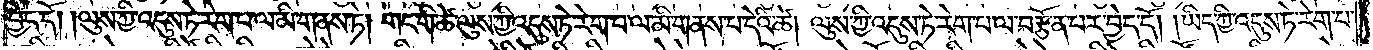བྱེད་དོ། །ལུས་ཀྱི་འདུས་ཏེ་རེག་པ་ལ་མི་གནས་ཏེ། གང་གི་ཚེ་ལུས་ཀྱི་འདུས་ཏེ་རེག་པ་ལ་མི་གནས་པ་དེའི་ཚེ། ལུས་ཀྱི་འདུས་ཏེ་རེག་པ་ལ་བརྩོན་པར་བྱེད་དོ། །ཡིད་ཀྱི་འདུས་ཏེ་རེག་པ་
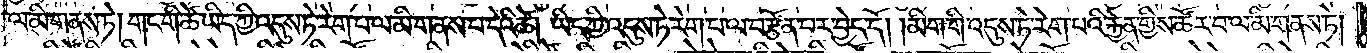ལ་མི་གནས་ཏེ། གང་གི་ཚེ་ཡིད་ཀྱི་འདུས་ཏེ་རེག་པ་ལ་མི་གནས་པ་དེའི་ཚེ། ཡིད་ཀྱི་འདུས་ཏེ་རེག་པ་ལ་བརྩོན་པར་བྱེད་དོ། །མིག་གི་འདུས་ཏེ་རེག་པའི་རྐྱེན་གྱིས་ཚོར་བ་ལ་མི་གནས་ཏེ།
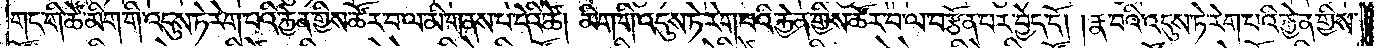གང་གི་ཚེ་མིག་གི་འདུས་ཏེ་རེག་པའི་རྐྱེན་གྱིས་ཚོར་བ་ལ་མི་གནས་པ་དེའི་ཚེ། མིག་གི་འདུས་ཏེ་རེག་པའི་རྐྱེན་གྱིས་ཚོར་བ་ལ་བརྩོན་པར་བྱེད་དོ། །རྣ་བའི་འདུས་ཏེ་རེག་པའི་རྐྱེན་གྱིས་
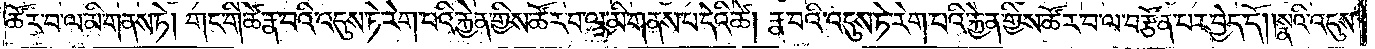ཚོར་བ་ལ་མི་གནས་ཏེ། གང་གི་ཚེ་རྣ་བའི་འདུས་ཏེ་རེག་པའི་རྐྱེན་གྱིས་ཚོར་བ་ལ་མི་གནས་པ་དེའི་ཚེ། རྣ་བའི་འདུས་ཏེ་རེག་པའི་རྐྱེན་གྱིས་ཚོར་བ་ལ་བརྩོན་པར་བྱེད་དོ། །སྣའི་འདུས་
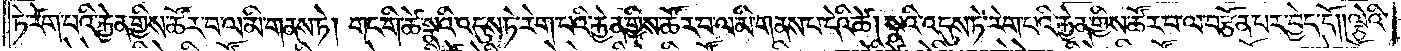ཏེ་རེག་པའི་རྐྱེན་གྱིས་ཚོར་བ་ལ་མི་གནས་ཏེ། གང་གི་ཚེ་སྣའི་འདུས་ཏེ་རེག་པའི་རྐྱེན་གྱིས་ཚོར་བ་ལ་མི་གནས་པ་དེའི་ཚེ། སྣའི་འདུས་ཏེ་རེག་པའི་རྐྱེན་གྱིས་ཚོར་བ་ལ་བརྩོན་པར་བྱེད་དོ། །ལྕེའི་
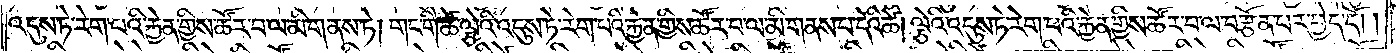འདུས་ཏེ་རེག་པའི་རྐྱེན་གྱིས་ཚོར་བ་ལ་མི་གནས་ཏེ། གང་གི་ཚེ་ལྕེའི་འདུས་ཏེ་རེག་པའི་རྐྱེན་གྱིས་ཚོར་བ་ལ་མི་གནས་པ་དེའི་ཚེ། ལྕེའི་འདུས་ཏེ་རེག་པའི་རྐྱེན་གྱིས་ཚོར་བ་ལ་བརྩོན་པར་བྱེད་དོ། །
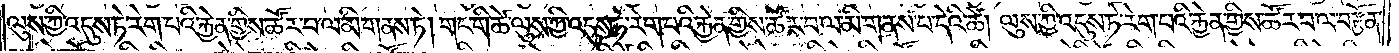ལུས་ཀྱི་འདུས་ཏེ་རེག་པའི་རྐྱེན་གྱིས་ཚོར་བ་ལ་མི་གནས་ཏེ། གང་གི་ཚེ་ལུས་ཀྱི་འདུས་ཏེ་རེག་པའི་རྐྱེན་གྱིས་ཚོར་བ་ལ་མི་གནས་པ་དེའི་ཚེ། ལུས་ཀྱི་འདུས་ཏེ་རེག་པའི་རྐྱེན་གྱིས་ཚོར་བ་ལ་བརྩོན་
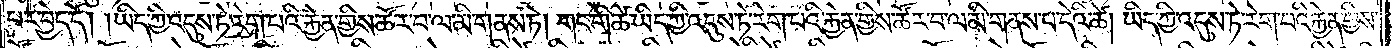པར་བྱེད་དོ། །ཡིད་ཀྱི་འདུས་ཏེ་རེག་པའི་རྐྱེན་གྱིས་ཚོར་བ་ལ་མི་གནས་ཏེ། གང་གི་ཚེ་ཡིད་ཀྱི་འདུས་ཏེ་རེག་པའི་རྐྱེན་གྱིས་ཚོར་བ་ལ་མི་གནས་པ་དེའི་ཚེ། ཡིད་ཀྱི་འདུས་ཏེ་རེག་པའི་རྐྱེན་གྱིས་
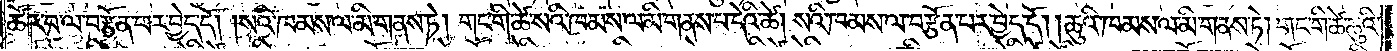ཚོར་བ་ལ་བརྩོན་པར་བྱེད་དོ། །སའི་ཁམས་ལ་མི་གནས་ཏེ། གང་གི་ཚེ་སའི་ཁམས་ལ་མི་གནས་པ་དེའི་ཚེ། སའི་ཁམས་ལ་བརྩོན་པར་བྱེད་དོ། །ཆུའི་ཁམས་ལ་མི་གནས་ཏེ། གང་གི་ཚེ་ཆུའི་
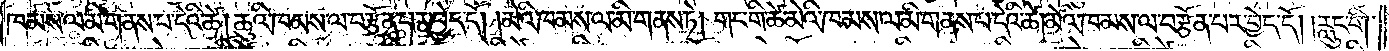ཁམས་ལ་མི་གནས་པ་དེའི་ཚེ། ཆུའི་ཁམས་ལ་བརྩོན་པར་བྱེད་དོ། །མེའི་ཁམས་ལ་མི་གནས་ཏེ། གང་གི་ཚེ་མེའི་ཁམས་ལ་མི་གནས་པའི་དེའི་ཚེ། མེའི་ཁམས་ལ་བརྩོན་པར་བྱེད་དོ། །རླུང་གི་
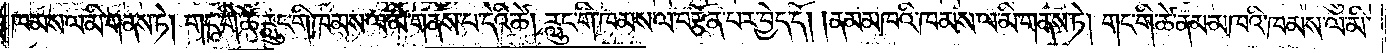ཁམས་ལ་མི་གནས་ཏེ། གང་གི་ཚེ་རླུང་གི་ཁམས་ལ་མི་གནས་པ་དེའི་ཚེ། རླུང་གི་ཁམས་ལ་བརྩོན་པར་བྱེད་དོ། །ནམ་མཁའི་ཁམས་ལ་མི་གནས་ཏེ། གང་གི་ཚེ་ནམ་མཁའི་ཁམས་ལ་མི་
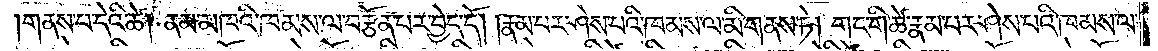གནས་པ་དེའི་ཚེ། ནམ་མཁའི་ཁམས་ལ་བརྩོན་པར་བྱེད་དོ། །རྣམ་པར་ཤེས་པའི་ཁམས་ལ་མི་གནས་ཏེ། གང་གི་ཚེ་རྣམ་པར་ཤེས་པའི་ཁམས་ལ་
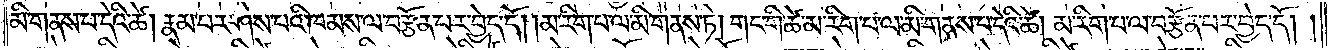མི་གནས་པ་དེའི་ཚེ། རྣམ་པར་ཤེས་པའི་ཁམས་ལ་བརྩོན་པར་བྱེད་དོ། །མ་རིག་པ་ལ་མི་གནས་ཏེ། གང་གི་ཚེ་མ་རིག་པ་ལ་མི་གནས་པ་དེའི་ཚེ། མ་རིག་པ་ལ་བརྩོན་པར་བྱེད་དོ། །
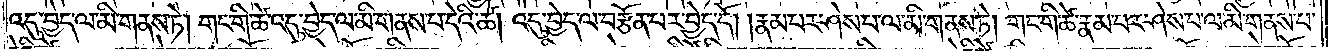འདུ་བྱེད་ལ་མི་གནས་ཏེ། གང་གི་ཚེ་འདུ་བྱེད་ལ་མི་གནས་པ་དེའི་ཚེ། འདུ་བྱེད་ལ་བརྩོན་པར་བྱེད་དོ། །རྣམ་པར་ཤེས་པ་ལ་མི་གནས་ཏེ། གང་གི་ཚེ་རྣམ་པར་ཤེས་པ་ལ་མི་གནས་པ་
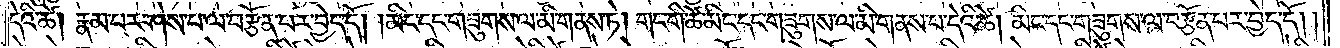དེའི་ཚེ། རྣམ་པར་ཤེས་པ་ལ་བརྩོན་པར་བྱེད་དོ། །མིང་དང་གཟུགས་ལ་མི་གནས་ཏེ། གང་གི་ཚེ་མིང་དང་གཟུགས་ལ་མི་གནས་པ་དེའི་ཚེ། མིང་དང་གཟུགས་ལ་བརྩོན་པར་བྱེད་དོ། །
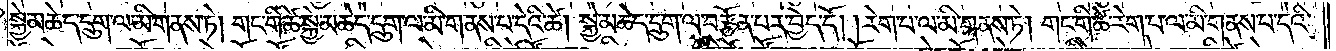སྐྱེ་མཆེད་དྲུག་ལ་མི་གནས་ཏེ། གང་གི་ཚེ་སྐྱེ་མཆེད་དྲུག་ལ་མི་གནས་པ་དེའི་ཚེ། སྐྱེ་མཆེད་དྲུག་ལ་བརྩོན་པར་བྱེད་དོ། །རེག་པ་ལ་མི་གནས་ཏེ། གང་གི་ཚེ་རེག་པ་ལ་མི་གནས་པ་དེའི་
